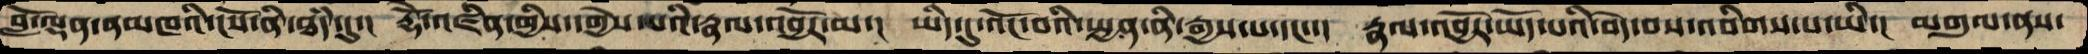བློ་ལྡན་ནམཁའི་ངོས་ནི་ཐཾད་དུ་།  རྡོེ་འཛིན་གྱིས་དགྱེས་པའི་རྣལ་འབྱོར་མ་།  ཡིད་དུ་འོང་བའི་སྤྱན་ནི་རྒྱས་པ་དང་་།  རྣལ་འབྱོར་ཡོད་པའི་བདེ་བས་འབིགས་པ་ཡི་།  མགུལ་ནས་
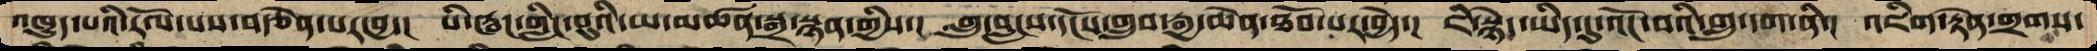འཁྱུད་པའི་རོལ་པས་བརྩེན་པར་བྱ་།  པི་ཝང་གླིང་བུའི་ཡ་མཚན་སྒྲ་སྙན་གྱིས་།  གླུ་བླངས་དངོས་གྲུབ་རྒྱ་ཆེན་ཐོབ་པར་བྱེད་།  ཇི་སྙེད་ཡིད་དུ་འོང་བའི་གླུ་དག་ནི་།  འཇིག་རྟེན་གྲགས་
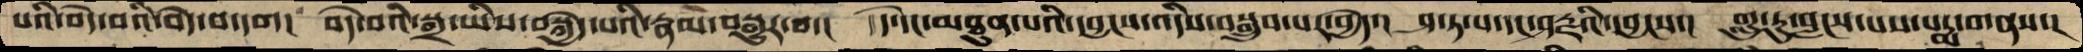པའི་བདེ་བའི་བདེ་བ་དག།  བདེ་བའི་སྒྲ་ཡིས་བསྐྱེད་པའི་རྣམ་བསྒྱུར་བ་།  དེ་དང་མཐུན་པའི་དབྱངས་འདིས་བསྒྲུབ་པར་བྱེད་།  ཤ་ཏ་པ་དང་ཤརྗའི་དབྱངས་།  གླུ་རུ་བླངས་པས་པདྨ་གནས་།
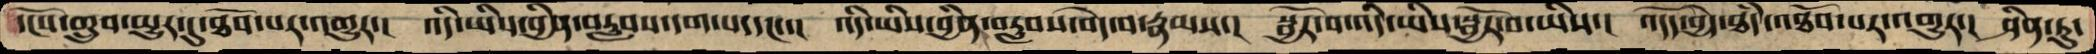དངོས་གྲུབ་མྱུར་དུ་ཐོབ་པར་འགྱུར་།  འདི་ཡིས་བྱིན་བརླབས་དག་པ་དང་་།  འདི་ཡིས་བྱིན་བརླབས་བདེ་བ་རྣམས་།  སྦྱོར་བ་འདི་ཡིས་སྦྱོར་བ་ཡིས་།  འདོད་བྱེད་ཐཾད་འཐོབ་པར་འགྱུར་།  ཤིན་ཏུ་
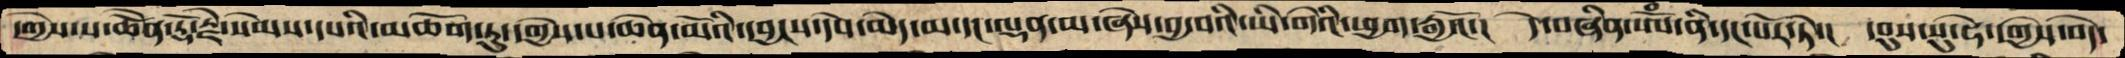དགྱེས་པ་ཆེོན་རྡོ་རྗེ་སེམས་དཔའི་མཆོག་ཏུ་དགྱེས་པ་ཆེན་མོའི་དབྱངས་དེས་མེད་མ་དང་ལྡན་མ་ཞེས་བྱ་བའི་ཡི་གེའི་ཕྱག་རྒྱའོ་།  དེ་བཞིན་ཨོཾ་ནི་དང་པོར་ཏེ་།  དབུས་སུ་ཧེ་དགྱེས་བདེ་
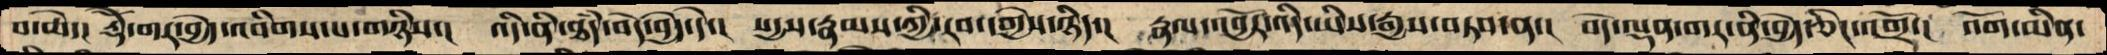པ་ཆེ་།  རྡོེ་གར་བྱེད་འབིགས་པ་གཉིས་།  འདི་ནི་ཐཾད་བདེ་བྱེད་དེ་།  སདྱས་རྣམས་ཀྱི་རབ་དགྱེས་ཉིད་།  རྣལ་འབྱོར་འདི་ཡིས་རྒྱས་བཏབ་ན་།  བདེ་ལྡན་གར་ནི་བྱེད་ཅིང་འགྲོ་།  འོག་མིན་
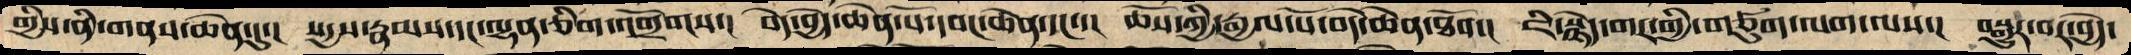གྱིས་ནི་གནས་ཆེན་དུ་།  སདྱས་རྣམས་དང་ལྷན་ཅིག་འགྲོགས་།  བདེ་བྱེད་ཆེན་པོ་དབང་ཆེན་དང་་།  ཆོས་ཀྱི་རྒྱལ་པོ་བདེ་ཆེན་ཐོབ་།  ཇི་སྙེད་གར་གྱི་གཙུག་ལག་ལས་།  བསྒྱུར་བར་བྱེད་
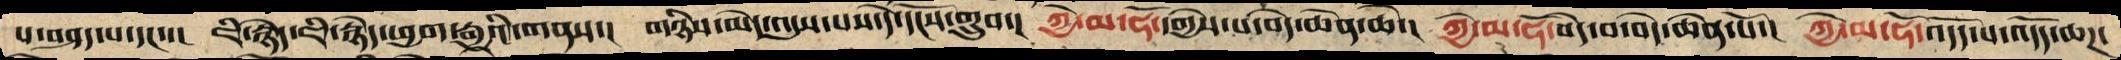པ་བཤད་པ་དང་་།  ཇི་སྙེད་ཇི་སྙེད་ཕྱག་རྒྱའི་གནས་།  གཉིས་མེད་འདུས་པས་དེ་དངེས་གྲུབ་།  ཀྱེ་མ་ཧོ་དགྱེས་པ་བདེ་ཆེན་ཆེ་།  ཀྱེ་མ་ཧོ་བདེ་བ་བདེ་ཆེན་པོ་།  ཀྱེ་མ་ཧོ་འདོད་པ་འདོད་ཆཌ་
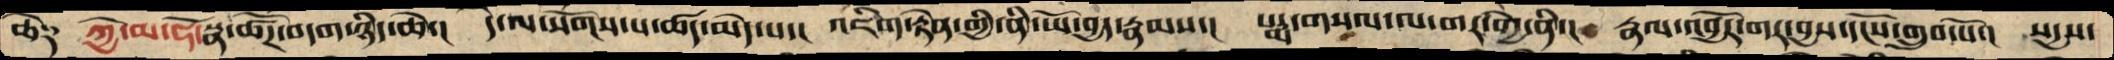ཆེ༑ ཀྱེ་མ་ཧོ་སྣ་ཚོཌ་བདག་ཉིད་ཆེ་།  དེ་ལ་སོགས་པ་ཚད་མེད་པ་།  འཇིག་རྟེན་གྱི་ནི་ཡོ་བྱད་རྣམས་།  པདྨ་གསལ་ལ་གར་གྱི་ནི་།  རྣྲལ་འབྱོར་གར་བྱས་དངོས་གྲུབ་པོ་།  སདྱས་
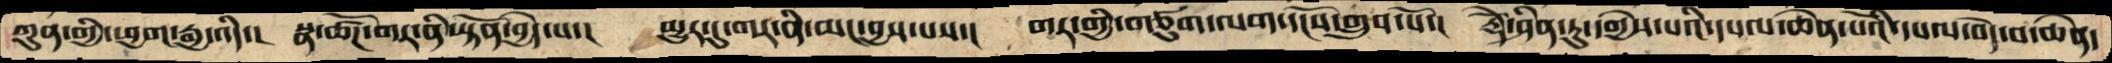ཀུན་གྱི་ཕྱག་རྒྱ་འདི་།  སྣ་ཚོཌ་གར་ནི་སྟོན་བྱེད་པ་།  མྱུར་དུ་གར་ནི་མང་བྱས་པས་།  གར་གྱི་གཙུག་ལག་དངོས་གྲུབ་པོ་།  རྡོེ་ཤིན་ཏུ་དགྱེས་པའི་དཔལ་ཆེན་པོའི་དཔལ་བདེ་བ་ཆེན་
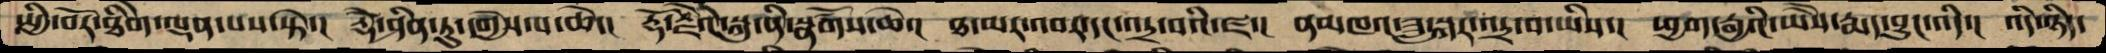སྤྱི་བོར་ཐིགེ་ལྡན་པས་སྟེ་།  རྡོེ་ཤིན་ཏུ་དགྱེས་པ་ཆེ་།  རྡོ་རྗེའི་སྐུ་ནི་སྣཚོགས་ཆེ་།  ཐ་མར་འབར་དང་འདྲ་བའི་ཛ་།  ནམཁའ་ཟླ་སྐར་འདྲ་བ་ཡིས་།  ཕྱག་རྒྱའི་ཡཻས་རྨད་བྱུང་འདི་།  འདི་ཉིད་
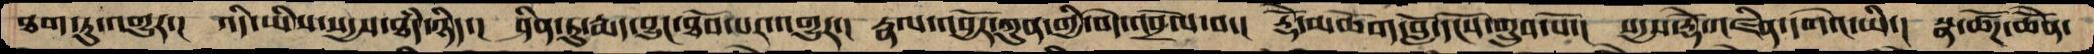ཐག་ཏུ་འགྱུར་།  འདི་ཡིས་སདྱས་ཐཾད་ཉིད་།  ཤིན་ཏུ་རྨད་བྱུང་ཐོབ་པར་འགྱུར་།  རྣལ་འབྱོར་ཀུན་གྱི་བདེ་འབྲེལ་བ་།  རྡོེ་མཆོག་བློ་དངོས་གྲུབ་པོ་།  སདྱས་རྡོེ་འཛིན་དགེའ་ཡི་།  སྣ་ཚོཌ་ཆེནོ་
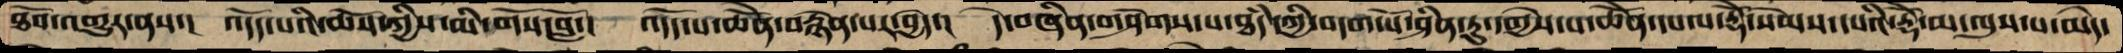ཐོབ་འགྱུར་ནས་།  འདོད་པའི་ཆོས་ཀྱིས་མི་གོས་བློ་།  འདོད་པ་ཆེནོ་བརྙེན་པར་བྱེད་།  དེ་བཞིན་གཤེགས་པ་ཐཾད་ཀྱི་བདག་པོ་ཤིན་ཏུ་དགྱེས་པ་ཆེནོ་དཔལ་རྡོེ་སེམས་དཔའི་རྡོེ་མ་ལུས་པ་མེད་
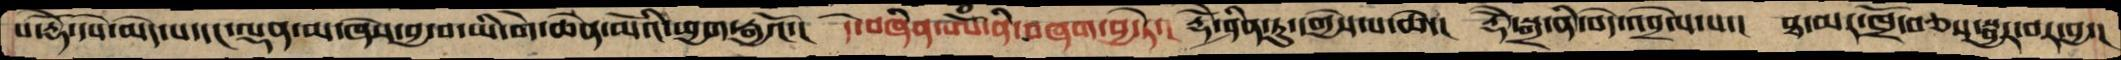པ་རྡོེེ་དཔེ་མེད་པ་དང་ལྡན་མ་ཞེས་བྱ་བ་ཡི་གེ་ཆེན་མོའི་ཕྱག་རྒྱའོ་།  དེ་བཞིན་ཨོཾ་ནི་བཞག་བྱ་ཏེ་།  རྡོེ་ཤིན་ཏུ་དགྱེས་པ་ཆེ་།  རྡོེ་སྒྲ་ནི་བདེ་འབྲེལ་པ་།  ཐ་མར་ཁྲོ་བཅས་སྦྱར་བར་བྱ་།
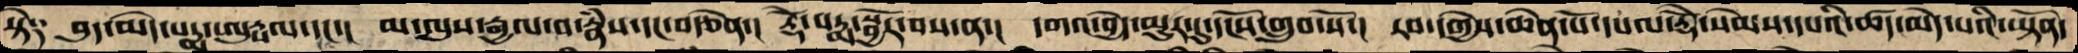སྟེ༑  བུད་མེད་པདྨ་ཨུཏྤལ་དང་།  མ་ལུས་རྒྱལ་བ་རྣཾས་དང་བརྩེན་།  རྡོེ་པདྨ་སྦྱོར་བས་ན་།  དགའ་བྱེད་མྱུར་དུ་དངོས་གྲུབ་པོ་།  རབ་དགྱེས་ཆེན་པོ་དཔལ་རྡོེ་སེམས་དཔའི་ཚད་མེད་པའི་ཡྟོན་
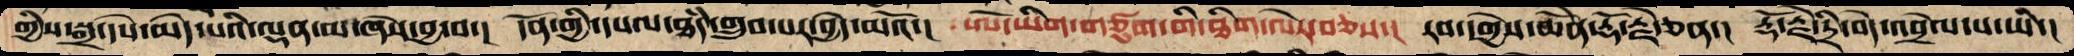གྱིས་སྒྲ་དཔེ་མེད་པའི་ལྡན་མ་ཞེས་བྱ་བ་།  དོན་གྱི་དཔལ་ཐཾད་གྲུབ་པར་བྱེད་མའོ་།  ཨོ་ཡིག་གཙུག་གི་ཐིག་ལེར་བཅས་།  རབ་དགྱེས་ཆེནོ་རྡོ་རྗེ་ཅན་།  རྡོ་རྗེ་དྲི་བདེ་འབྲེལ་པ་ཡི་།
